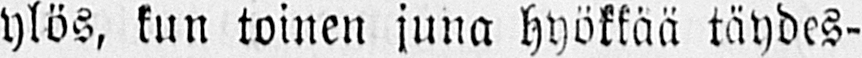ylös, kun toinen juna hyökkää täydes-
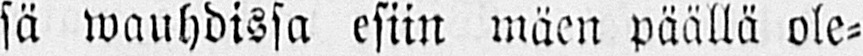sä wauhdissa esiin mäen päällä ole-
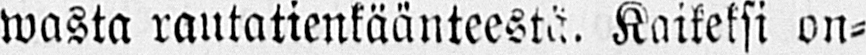wasta rautatienkäänteestä. Kaikeksi on-
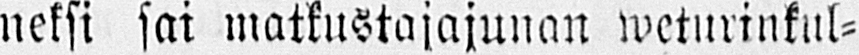neksi sai matkustajajunan weturinkul-
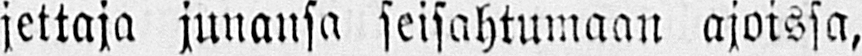jettaja junansa seisahtumaan ajoissa,
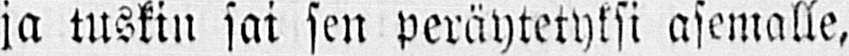ja tuskin sai sen peräytetyksi asemalle,
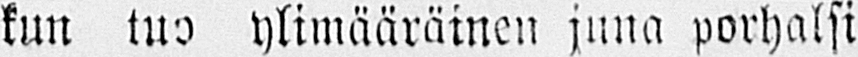kun tuo ylimääräinen juna porhalsi
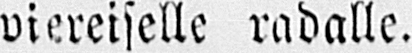wiereiselle radalle.
